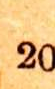20
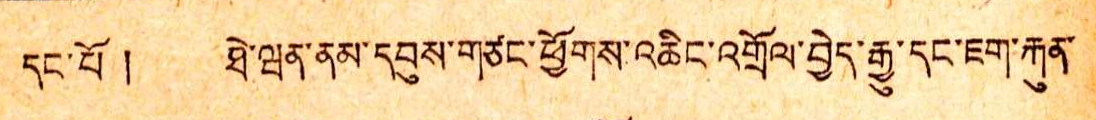དང་པོ ། ཐེ་ཝན་ནམ་དབུས་གཙང་ཕྱོགས་འཆིང་འགྲོལ་བྱེད་རྒྱུ་དང་ཇག་རྐུན་
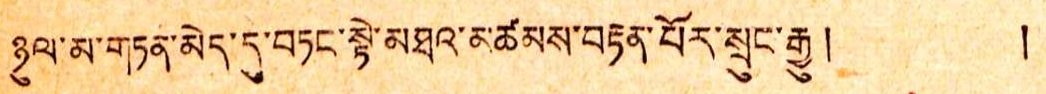ཉུལ་མ་གཏན་མེད་དུ་བཏང་སྟེ་མཐའ་མཚམས་བརྟན་པོར་སྲུང་རྒྱུ ། །
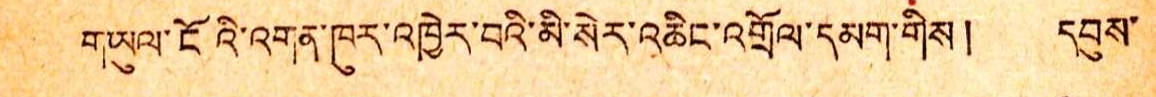གཡུལ་ངོའི་འགན་ཁུར་འཁྱེར་བའི་མི་སེར་འཆིང་འགྲོལ་དམག་གིས ། དབུས་
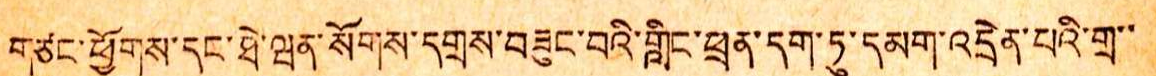གཙང་ཕྱོགས་དང་ཐེ་ཝན་སོགས་དགྲས་བཟུང་བའི་གླིང་ཕྲན་དག་ཏུ་དམག་འདྲེན་པའི་གྲ་་
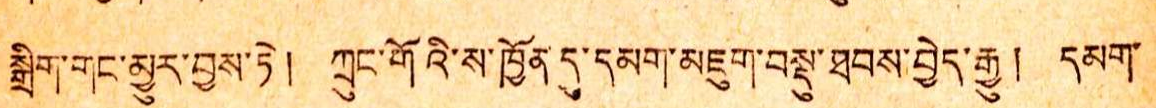སྒྲིག་གང་མྱུར་བྱས་ཏེ ། ཀྲུང་གོའི་ས་ཁྱོན་དུ་དམག་མཇུག་བསྡུ་ཐབས་བྱེད་རྒྱུ ། དམག་
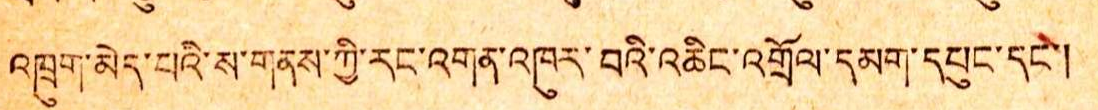འཁྲུག་མེད་པའི་ས་གནས་ཀྱི་རང་འགན་འཁུར་བའི་འཆིང་འགྲོལ་དམག་དཔུང་དང་།
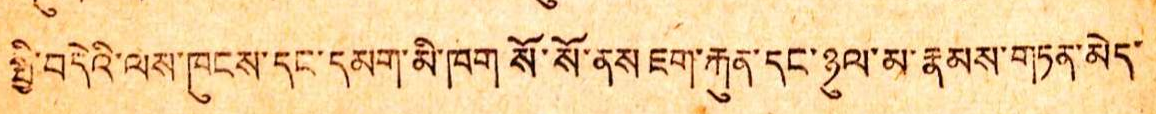སྤྱི་བདེའི་ལས་ཁུངས་དང་དམག་མི་ཁག སོ་སོ་ནས ཇག་རྐུན་དང་ཉུལ་མ་རྣམས་གཏན་མེད་
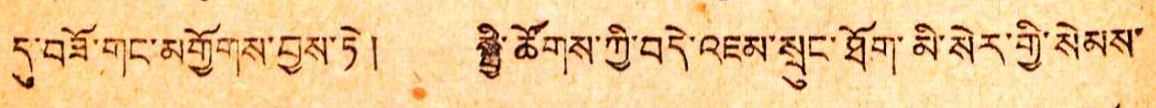དུ་བཟོ་གང་མགྱོགས་བྱས་ཏེ ། སྤྱི་ཚོགས་ཀྱི་བདེ་འཇམ་སྲུང་ཐོག་མི་སེར་གྱི་སེམས་
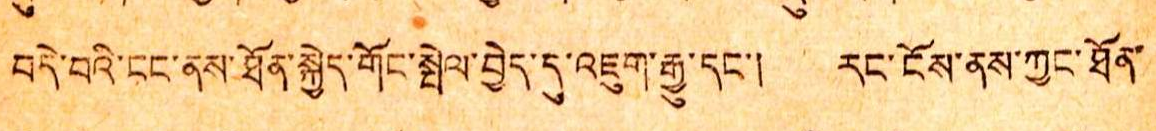བདེ་བའི་ངང་ནས་ཐོན་སྐྱེད་གོང་སྤེལ་བྱེད་དུ་འཇུག་རྒྱུ་དང་། རང་ངོས་ནས་ཀྱང་ཐོན་
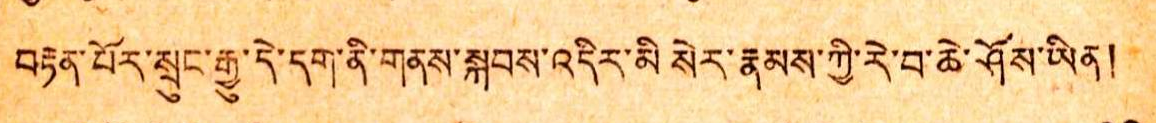བརྟན་པོར་སྲུང་རྒྱུ་དེ་དག་ནི་གནས་སྐབས་འདིར་མི སིར་རྣམས་ཀྱི་རེ་བ་ཆེ་ཤོས་ཡིན །
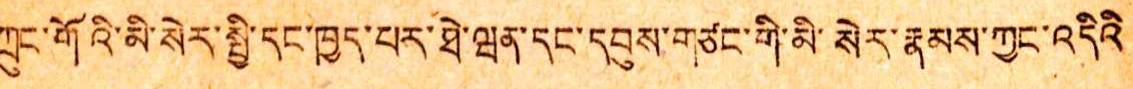ཀྲུང་གོའི་མི་སེར་སྤྱི་དང་ཁྱད་པར་ཐེ་ཝན་དང་དབུས་གཏང་གི་མི་སེར་རྣམས་ཀྱང་འདིའི
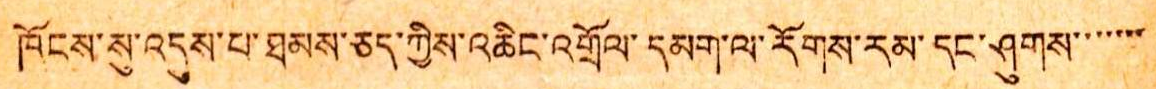ཁོངས་སུ་འདུས་པ་ཐམས་ཅད་ཀྱིས་འཆིང་འགྲོལ་དམག་ལ་རོགས་རམ་དང་ཤུགས་་་་་་་
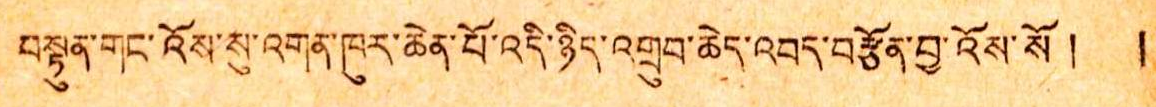བལྟུན་གང་འོས་སུ་འགན་ཁུར་ཆེན་པོ་འདི་ཉིད་འགྲུབ་ཆེད་འབད་བརྩོན་བྱ་འོས་སོ ། །
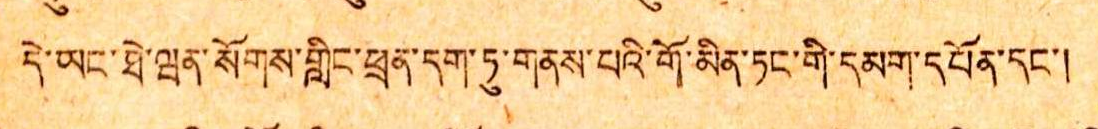དེ་ཡང་ཐེ་ཝན་སོགས་གླིང་ཕྲན་དག་ཏུ་གནས་པའི་གོ་མིན་ཏང་གི་དམག་དཔོན་དང་།
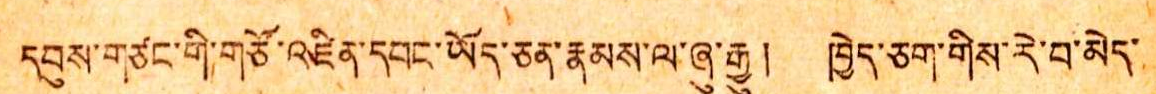དབུས་གཙང་གི་གཙོ་འཛིན་དབང་ཡོད་ཅན་རྣམས་ལ་ཞུ་རྒྱུ ། ཁྱེད་ཅག་གིས་རེ་བ་མེད་
